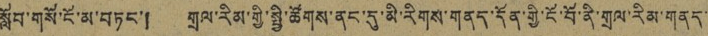སློབ་གསོ་ངོ་མ་བཏང་། གྲལ་རིམ་གྱི་སྤྱི་ཚོགས་ནང་དུ་མི་རིགས་གནད་དོན་གྱི་ངོ་བོ་ནི་གྲལ་རིམ་གནད་
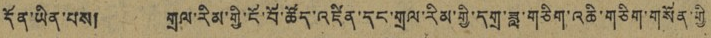དོན་ཡིན་པས། གྲལ་རིམ་གྱི་ངོ་བོ་ཚོད་འཛིན་དང་གྲལ་རིམ་གྱི་དགྲ་ཟླ་གཅིག་འཆི་གཅིག་གསོན་གྱི
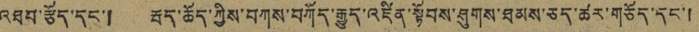འཐབ་རྩོད་དང་། རྦད་ཆོད་ཀྱིས་བཀས་བཀོད་རྒྱུད་འཛིན་སྟོབས་ཤུགས་ཐམས་ཅད་ཚར་གཅོད་དང་།
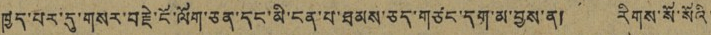ཁྱད་པར་དུ་གསར་བརྗེ་ངོ་ལོག་ཅན་དང་མི་ངན་པ་ཐམས་ཅད་གཙང་དག་མ་བྱས་ན། རིགས་སོ་སོའི་
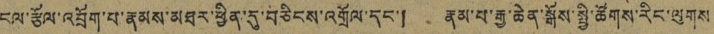ངལ་རྩོལ་འབྲོག་པ་རྣམས་མཐར་ཕྱིན་དུ་བཅིངས་འགྲོལ་དང་། རྣམ་པ་རྒྱ་ཆེན་སྒོས་སྤྱི་ཚོགས་རིང་ལུགས
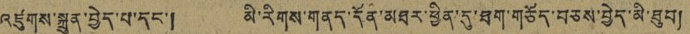འཛུགས་སྐྲུན་བྱེད་པ་དང་། མི་རིགས་གནད་དོན་མཐར་ཕྱིན་དུ་ཐག་གཅོད་བཅས་བྱེད་མི་ཐུབ།
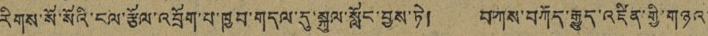རིགས་སོ་སོའི་ངལ་རྩོལ་འབྲོག་པ་ཁྱབ་གདལ་དུ་སྐུལ་སློང་བྱས་ཏེ། བཀས་བཀོད་རྒྱུད་འཛིན་གྱི་གཉའ་
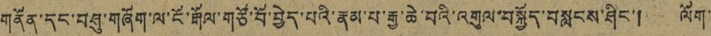གནོན་དང་བཤུ་གཞོག་ལ་ངོ་རྒོལ་གཙོ་བོ་བྱེད་པའི་རྣམ་པ་རྒྱ་ཆེ་བའི་འགུལ་བསླངས་ཤིང་། ལོག་
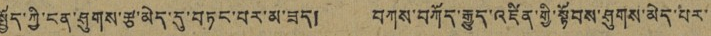སྤྱོད་ཀྱི་ངན་ཤུགས་རྩ་མེད་དུ་བཏང་བར་མ་ཟད། བཀས་བཀོད་རྒྱུད་འཛིན་གྱི་སྟོབས་ཤུགས་མེད་པར་
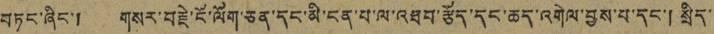བཏང་ཞིང་། གསར་བརྗེ་ངོ་ལོག་ཅན་དང་མི་ངན་པ་ལ་འཐབ་རྩོད་དང་ཆད་འགེལ་བྱས་པ་དང་། སྲིད་
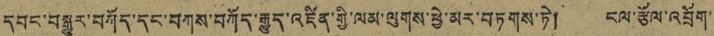དབང་བསྒྱུར་བཀོད་དང་བཀས་བཀོད་རྒྱུད་འཛིན་གྱི་ལམ་ལུགས་ཕྱེ་མར་བཏགས་ཏེ། ངལ་རྩོལ་འབྲོག་
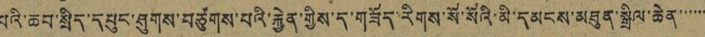པའི་ཆབ་སྲིད་དཔུང་ཤུགས་བཙུགས་པའི་རྐྱེན་གྱིས་ད་གཟོད་རིགས་སོ་སོའི་མི་དམངས་མཐུན་སྒྲིལ་ཆེན་་་་་་་
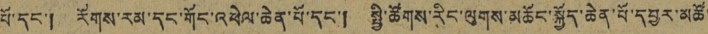པོ་དང་། རོགས་རམ་དང་གོང་འཕེལ་ཆེན་པོ་དང་། སྤྱི་ཚོགས་རིང་ལུགས་མཆོང་སྐྱོད་ཆེན་པོ་དབྱར་མཚོ་
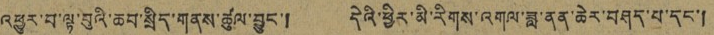འཕྱུར་བ་ལྟ་བུའི་ཆབ་སྲིད་གནས་ཚུལ་བྱུང་། དེའི་ཕྱིར་མི་རིགས་འགལ་ཟླ་ནན་ཆེར་བཤད་པ་དང་།
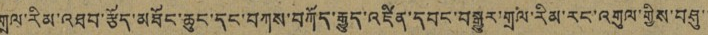གྲལ་རིམ་འཐབ་རྩོད་མཐོང་ཆུང་དང་བཀས་བཀོད་རྒྱུད་འཛིན་དབང་བསྒྱུར་གྲལ་རིམ་རང་འགུལ་གྱིས་བཤུ་་
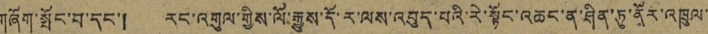གཞོག་སྤོང་བ་དང་། རང་འགུལ་གྱིས་ལོ་རྒྱུས་དོ་ར་ལས་འབུད་པའི་རེ་སྟོང་འཆང་ན་ཤིན་ཏུ་ནོར་འཁྲུལ་
